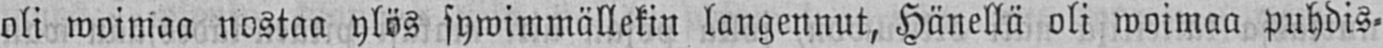oli woimaa nostaa ylös sywimmällekin langennut, Hänellä oli woimaa puhdis-
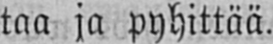taa ja pyhittää.
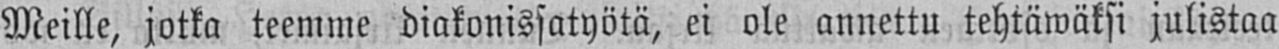Meille, jotka teemme diakonissatyötä, ei ole annettu tehtäwäksi julistaa
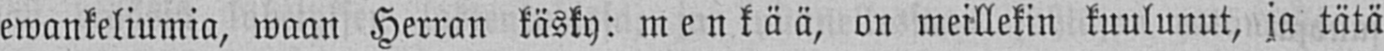ewankeliumia, waan Herran käsky: menkää, on meillekin kuulunut, ja tätä
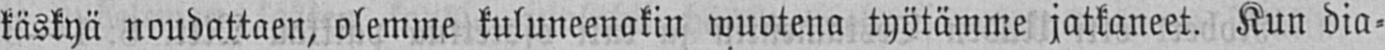käskyä noudattaen, olemme kuluneenakin wuotena työtämme jatkaneet. Kun dia-
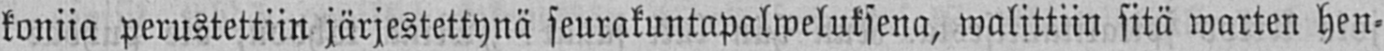koniia perustettiin järjestettynä seurakuntapalweluksena, walittiin sitä warten hen-
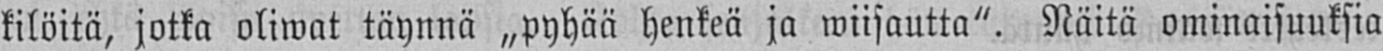kilöitä, jotka oliwat täynnä „pyhää henkeä ja wiisautta". Näitä ominaisuuksia
